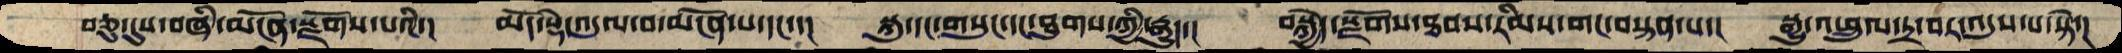བཅུ་དུས་བཞི་མངོན་སྫོགས་པའི་།  མདོ་སྡེ་འདུལ་བ་མངོན་པ་དང་་།  སྐུ་དང་གསུང་དང་ཐུགས་ཀྱི་རྒྱུད་།  བསྐྱེད་སྫོགས་ཐབས་རིམས་གང་བསྟན་པ་།  སྒྱུ་འཕྲུལ་དྲ་བར་འདུས་པ་སྟེ་།
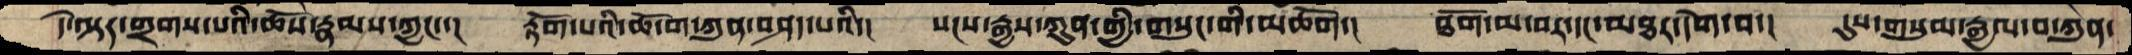དེ་ལྟར་གྲགས་པའི་ཆོས་རྣམས་ཀྱང་་།  རྟོག་པའི་ཆོ་ག་ཀུན་བཤད་པའི་།  སངས་རྒྱས་ཀུན་གྱི་གསུང་གི་མཆོག་།  ཐོག་མ་བར་དང་མཐར་དགེ་བ་།  དུས་གསུམ་རྒྱལ་བ་ཀུན་
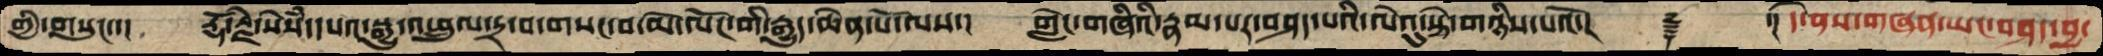གྱི་གསུང་་།  རྡོ་རྗེ་སེཾས་དཔའ་སྒྱུ་འཕྲུལ་དྲ་བ་གསང་བ་མེ་ལོང་གི་རྒྱུད་ཆེན་པོ་ལས་།  གླེང་གཞིའི་རྣམ་པར་བཤད་པའི་ལེའུ་སྟེ་གཉིས་པའོ་།    ࿑  ་། དེ་ནས་གཞན་ཡང་བཤད་བྱ་
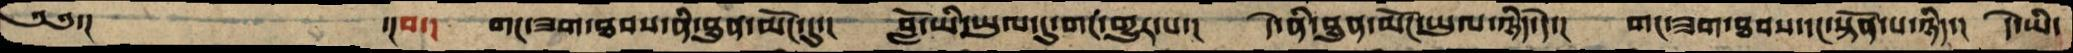༄༅་།     ་།བ་།  གང་ཟག་ཐབས་ནི་ཐུན་མོང་དུ་།  བློ་ཡི་ཡུལ་དུ་གང་གྱུར་པ་།  དེ་ནི་ཐུན་མོང་ཡུལ་ཉིད་དེ་།  གང་ཟག་ཐབས་དང་སྟོན་པ་ཉིད་།  དེ་ཡི་
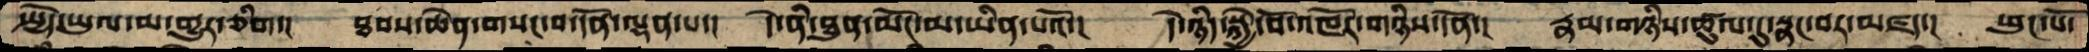སྤྱོད་ཡུལ་མ་གྱུར་ཅིག་།  ཐབས་ཆེན་གསང་བ་དོན་ལྡན་པ་།  དེ་ནི་ཐུན་མོང་མ་ཡིན་པའོ་།  དེ་ཉིད་སྐྱེ་བོ་འཁོར་གཉིས་དོན་།  རྣམ་གཉིས་ཚུལ་དུ་སྣང་བར་མཛད་།  ཕུང་པོ་
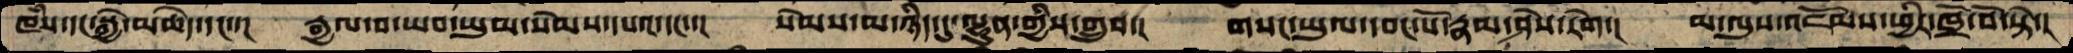ཁཾས་དང་སྐྱེ་མཆེད་དང་་།  རྒྱལ་བ་ཡབ་ཡུམ་སེམས་དཔའ་དང་་།  སེམས་མ་ཉིད་དུ་ལྷུན་གྱིས་གྲུབ་།  གསང་ཡུལ་དབང་པོ་རྣམ་ཤེས་རེག་།  མ་ལུས་འཇོམས་ཕྱིར་ཁྲོ་བོ་སྟེ་།
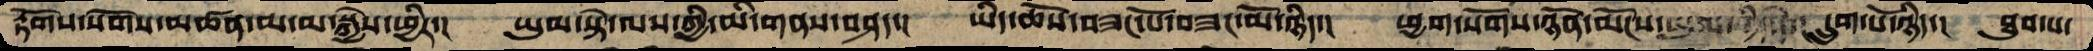རྟོགས་སོགས་མཚན་མ་མ་སྐྱེས་ཕྱིར་།  ཡུམ་སྟེ་ལས་ཀྱི་མི་གནས་བཤད་། ཡིད་ཆོས་བཟང་པོ་བཟང་མོ་ཉིད་། ཕྱག་སོགས་ཉོན་མོངས་དྲུག་པོ་ཉིད་།  ཐུབ་པ་
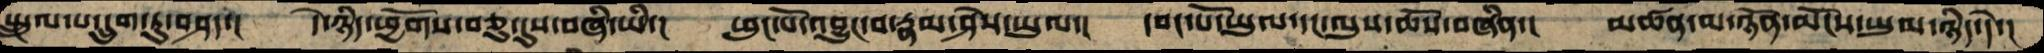སྤྲུལ་པ་དྲུག་ཏུ་བཤད་།  དེ་ཉིད་ཕྱོགས་བཅུ་དུས་བཞི་ཡི་།  ཕུང་པོ་འབྱུང་བ་རྣམ་ཤེས་ཡུལ་།  དབང་པོ་ཡུལ་དང་ལུས་ཆོས་བཞིན་།  མཚན་མ་ཉོན་མོངས་ཡུལ་ཉིད་དེ་།
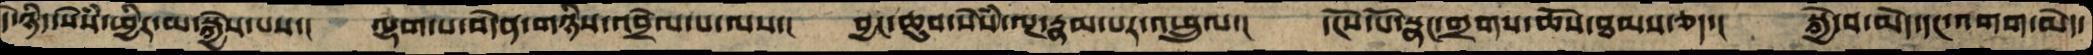དེ་ཉིད་སེཾས་ཕྱིར་མ་སྐྱེས་པས་།  ལྷག་པ་བདེན་གཉིས་འབྲེལ་པ་ལས་།  བྱང་ཆུབ་སེཾས་ལྔ་རྣམ་པར་འཕྲུལ་།  དངོས་པོ་སྣང་གྲགས་ཆོས་ཐམས་ཅད་།  སྐྱེ་བ་མེད་དང་འགག་མེད་
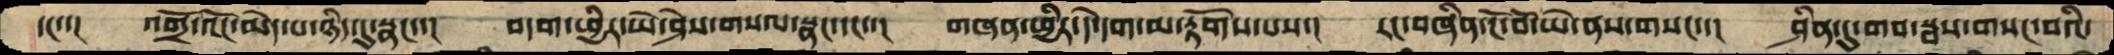དང་་།  འགྲོ་འོང་མེད་པ་ཉིད་དུ་སྣང་་།  བདག་ཕྱིར་ཡེ་ཤེས་གསལ་སྣང་དང་་།  གཞན་ཕྱིར་དེ་དག་མ་རྟོགས་པས་།  རང་བཞིན་ངོ་བོ་ཡེ་ནས་གསང་་།  ཤིན་དུ་གབ་སྦས་གསང་བའི་
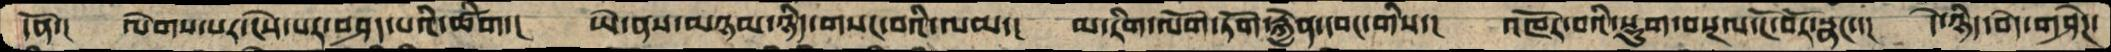དོན་།   ལེགས་པར་ངེས་པར་བཤད་པའི་ཚིག་།  ཡེ་ནས་མཉམ་ཉིད་གསང་བའི་ལམ་།  མ་རིག་ལོག་ཏོག་རྐྱེན་དབང་གིས་།  འཁོར་བའི་སྡུག་བསྔལ་ངོ་བོར་སྣང་་།  དེ་ཉིད་བདེ་གཤེཌ་
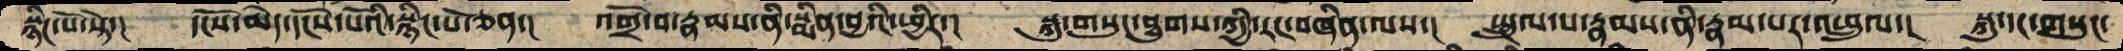སྙིང་པོ་སྟེ་།   དངོས་མེད་དངོས་པོའི་སྙིང་པོ་ཅན་།  འགྲོ་བ་རྣམས་ནི་སྨིན་བྱའི་ཕྱིར་།  སྐུ་གསུང་ཐུགས་ཀྱི་རང་བཞིན་ལས་།  སྤྲུལ་པ་རྣམས་ནི་རྣམ་པར་འཕྲུལ་།  སྐུ་དང་གསུང་
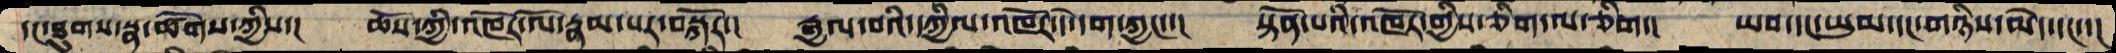དང་ཐུགས་སྣ་ཚོགས་ཀྱིས་།  ཆོས་ཀྱི་འཁོར་ལོ་རྣམ་པར་བསྐོར་།  རྒྱལ་བའི་དཀྱིལ་འཁོར་དེ་དག་ཀྱང་་།  སྟོན་པའི་འཁོར་གྱིས་ཅིག་ལ་ཅིག་།  ཡབ་དང་ཡུམ་དང་གཉིས་མེད་དང་་།
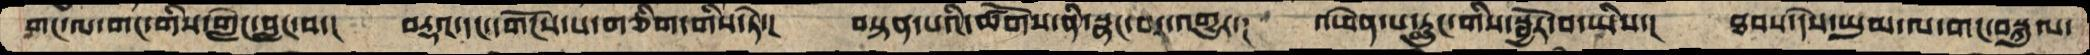གང་ལ་གང་གིས་གླེང་བླང་བ་།  བརྡའ་དང་དགོངས་པ་གཅིག་གིས་ཏེ་།  བསྟན་པའི་ཚོགས་ནི་སྣང་བར་འགྱུར་།  འཕེན་པ་རླུང་གིས་སྦྱོར་བ་ཡིས་།  ཐབས་དེས་ཡུམ་ལ་གང་བསྐུལ་
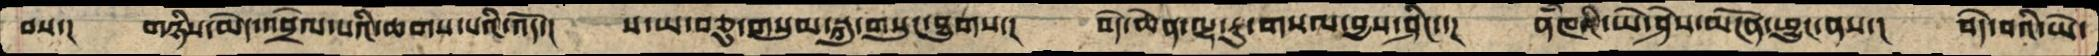བས་།  གཉིས་མེད་འབྲེལ་པའི་ཆགས་པའི་འོད་།  ས་ཡ་བཅུ་གསུམ་སྐུ་གསུང་ཐུགས་།  བདེ་ཆེན་ལྷ་རུ་གསལ་བྱས་ཤིང་་།  ནཾཁའི་ཡེ་ཤེས་མངོན་ཕྱུང་ནས་།  བདེ་བའི་ཡེ་
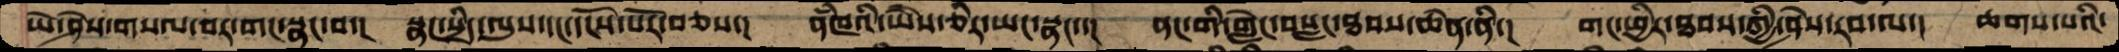ཡེ་ཤེས་གསལ་བར་གང་སྣང་བ་།  སྣང་སྲིད་ལུས་དང་དངོས་པོར་བཅས་།  ནཾཁའི་ཡཻས་ཅིར་ཡང་སྣང་་།  ནང་གི་གླེང་བསླང་ཐབས་ཆེན་ནི་།   གང་ཕྱིར་ཐབས་ཀྱི་ཤེས་རབ་ལ་།  ཆགས་པའི་
